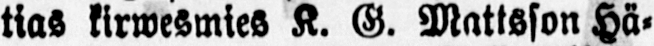tias kirwesmies K. G. Mattsson Hä-
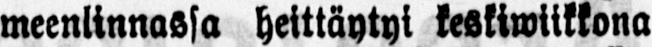meenlinnassa heittäytyi keskiwiikkona
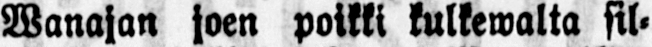Wanajan joen poikki kulkewalta sil-
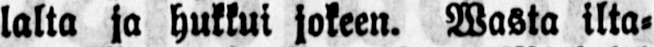lalta ja hukkui jokeen. Vasta ilta-
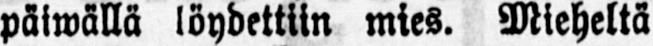päiwällä löydettiin mies. Mieheltä
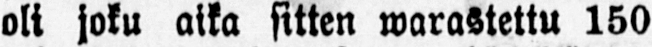oli joku aika sitten warastettu 150
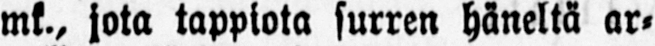mk., jota tappiota surren häneltä ar-
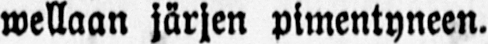welkaan järjen pimentyneen.
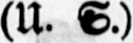(U. S.)
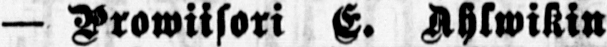— Prowiisori E. Ahlwikin
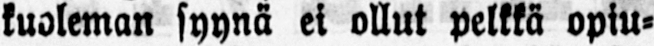kuoleman syynä ei ollut pelkkä opiu-
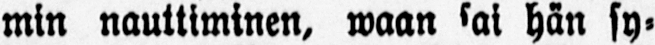min nauttiminen, waan sai hän sy-
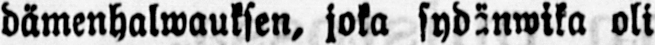dämenhalwauksen, joka sydänwika oli
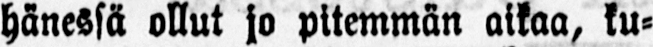hänessä ollut jo pitemmän aikaa, ku-
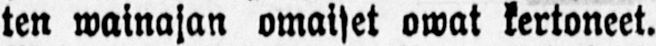ten wainajan omaiset owat kertoneet.
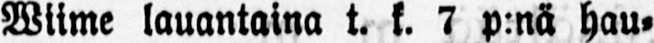Wiime lauantaina t. k. 7 p:nä hau-
